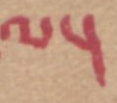ལ།
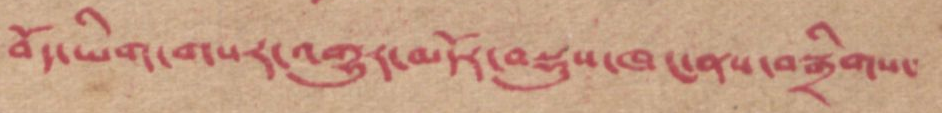བོད་ཡིག་གསར་འགྱུར་མདོར་བསྡུས་ཁང་ནས་བསྒྲིགས་
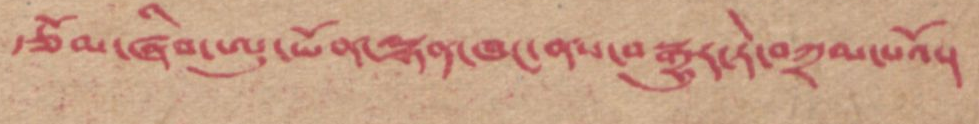རྩོམ་ཞིག་ཨུ་ཡོན་ལྷན་ཁང་ནས་བསྒྱུར་ཏེ་བཀྲལ་པའོ།
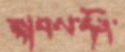སྐབས་དོན་
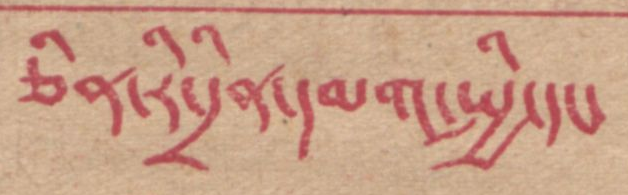ཅིན་རི་དྲིན་དམག་སྤྱི་དང་
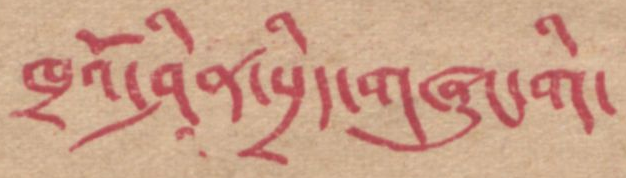ཁྲའོ་ཤིན་སྲིད་གཞུང་གི་
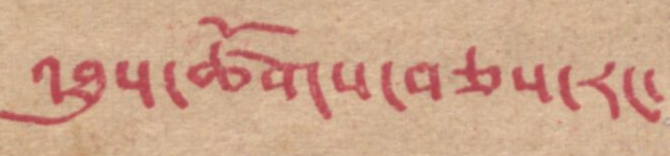འཐུས་ཚོགས་བཅས་རང་
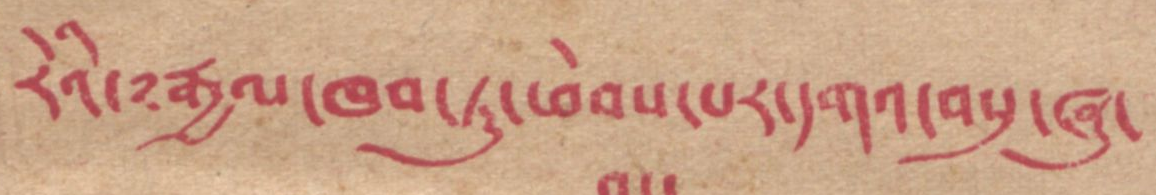རེའེ་༸རྒྱལ་ཁབ་ཏུ་ཕེབས་པར་དགའ་བསུ་ཞུ་
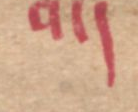བ།
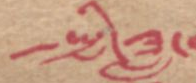སྤྱི་ཟླ་
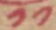༡༡
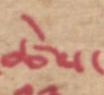ཚེས་
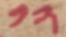༡༢
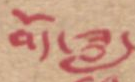བོད་ཟླ་
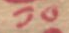༡༠
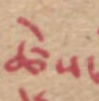ཚེས་
